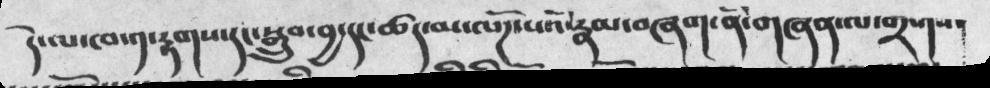དེ་ལ་ཁ་༡་རྟགས་དང་སྒྲུབ་བྱ་དང་ཚད་མ་ལོཌ་པའི་རྣམ་བཞག་ནི་གཞན་ལ་གྲགས་
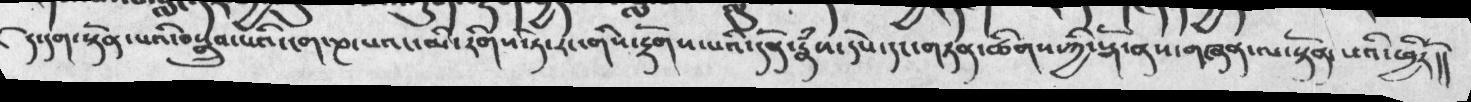དེ་དག་སྟོན་པའི་བསྒྲུབ་པའི་ངག་ཎ་པའང་མི་རིགས་ཏེ་རང་གིས་རྟོགས་པའི་དོན་རྣཾས་དཔེ་དང་གཏན་ཚིགས་ཀྱི་སྒོ་ནས་གཞན་ལ་སྟོན་པའི་ཕྱིརོ།།
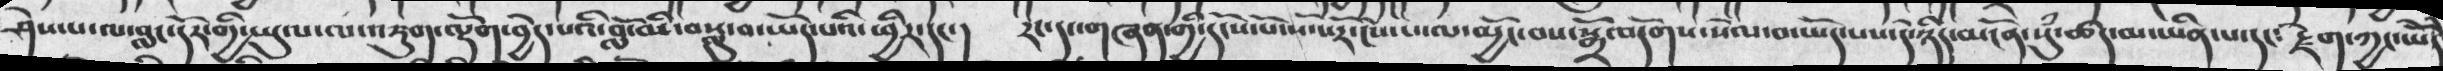ཤེས་པ་ལ་བླང་དོར་གྱི་ཡུལ་ལ་འཇུག་ལྡོག་བྱེད་པའི་བློ་མི་བསླུ་བ་ཡོད་པའི་ཕྱིར་དང་།། རང་དང་གཞན་གྱི་དངོས་པོ་སོ་སོར་ངེས་པ་ལ་མྱོང་བས་སྒྲོ་འདོགས་སེལ་བ་ཡོད་པས་དེ་ཉིད་མངོན་སུཾ་ཚད་མ་ཡིན་པ་དང༴ རྗེག་ཀྱང་ཡོདེ
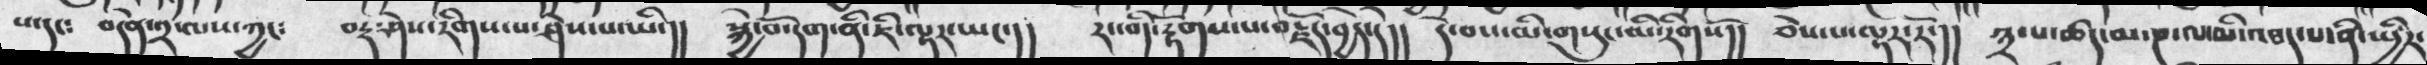པ་དང༴ བདེན་༢་ལས་ཀྱང༴ བརྡ་ཤེས་རིགས་པ་ཤེས་པ་ཡི་།། སྐྱེ་བོ་དག་ནི་ཇི་ལྟར་ཡང་།། རང་གི་རྟོགས་པ་བརྗོད་བྱེད་དེ།། དེ་བས་མི་གསུང་མི་རིགསོ།། ཅེས་པ་ལྟར་རོ་།། ༣་པ་ཚད་མ་ཎ་ལ་མི་འཐད་པ་ནི་སྤྱིར་
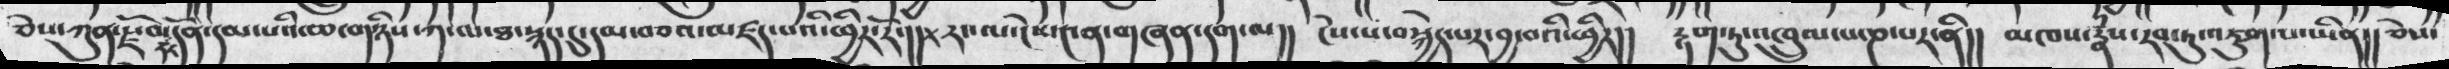ཅེས་ཀུན་རྫོབ་དང་དོན་དམ་པའི་ཆ་ནས་གཉིས་ཀ་ལ་ཐ་སྙད་དུ་དམ་བཅའ་མཛད་པའི་ཕྱིར་།།+རང་ལ་ངེས་༤ན་གཞན་དག་ལ།།   ངེས་པ་བསྐྱེད་པར་བྱ་བའི་ཕྱིར།།  རྟག་ཏུ་འཁྲུལ་པ་ཎ་པར་ནི།།  མཁས་རྣཾས་རབ་ཏུ་འཇུག་པ་ཡིན།། ཅེས་
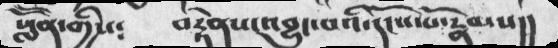སློོན་གྱིས༴    བརྟེནས་འབྱུང་བའི་དངོས་པོ་རྣམས།།
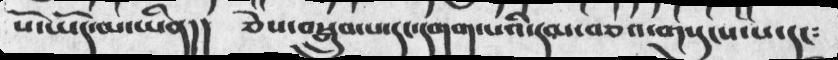པོ་ཡོད་མ་ཡིན།།      ཅེས་བསྒྲུབ་པ་དང་དགག་པའི་དམ་བཅའ་གསུངས་པ་དང༴
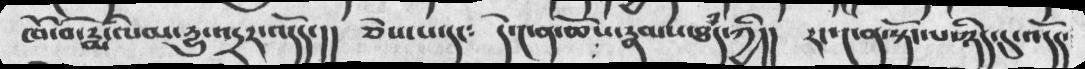ཁོ་བོ་རྨི་ལམ་དྱུ་འདྲར་འདོད་།།   ཅེས་པ་དང༴     དེ་༤ན་ཆོས་རྣམས་ཐཾད་ཀྱི།།    རང་༤ན་སྟོང་པ་ཉིད་དུ་འདོད་
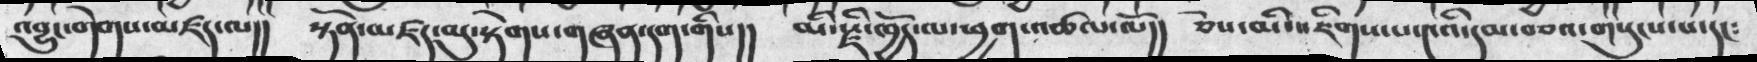འབྱུང་གེགས་མཛད་ལ།།   སྟོན་མཛད་མུ་སྟེགས་གཞན་དག་གིས།།  མི་རྫི་ཁྱོད་ལ་ཕྱག་འཚལ་ལོ།།   ཅེས་མི་འཇིགས་པ་༤འི་དམ་བཅའ་གསུངས་པ་དང༴
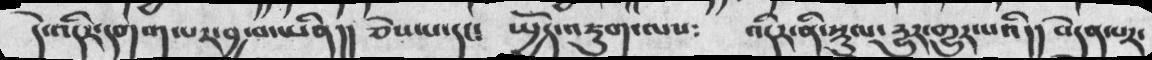དེ་འདིར་དགག་པར་བྱ་བ་ཡིན།།  ཅེས་པ་དང༴   སྤྱོད་འཇུག་ལས༴    འདིར་ནི་སྡུལ་དྱུར་གྱུར་པའི།། བདེན་པར་
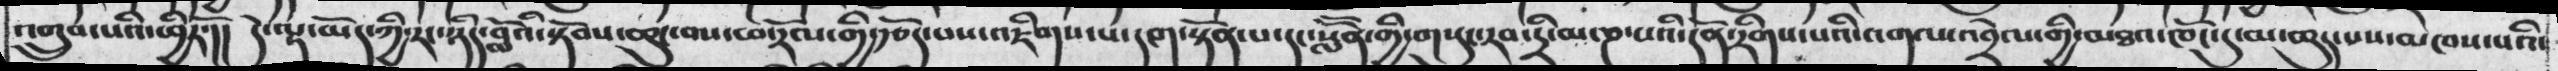འགྲུབ་པའི་ཕྱིརོ་།།   དེ་ལྟ་མོད་ཀྱི་རང་ཉིད་བློའི་སྟོབས་ཆུང་བས་ཕ་རོལ་གྱི་རྩོད་པས་འཇིགས་པ་དག་སྟོན་པ་དང་སློོན་གྱི་གསུངས་རབ་དྲི་མ་ཎ་པའི་དོན་རིགས་པའི་འགལ་འབྲེལ་གྱི་མཐའ་ཁོང་དུ་མ་ཆུད་པས་མཁས་པའི་
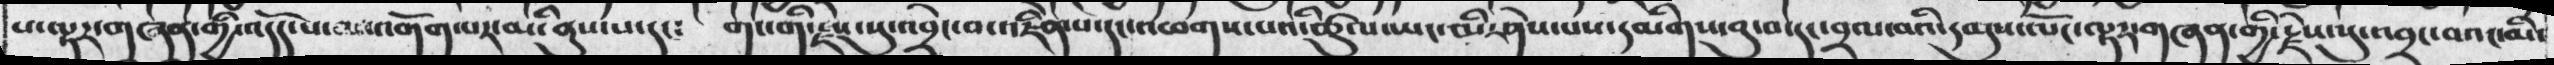པ་ལྟར་གཞན་གྱི་འདོད་པ་ལ་འགོག་པར་མི་ནུས་པ་དང༴   གང་གི་རྗེས་སུ་འབྲེང་བ་འཇིེན་པ་དང་འཕགས་པའི་ཚུལ་ཡང་མི་ཤེས་པས་དམིགས་བུ་བ་དང་བྲལ་བའི་དམུས་ལོང་ལྟར་གཞན་གྱི་རྗེས་སུ་འབྲང་བའང་མི་
